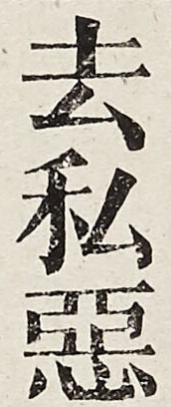去私惡
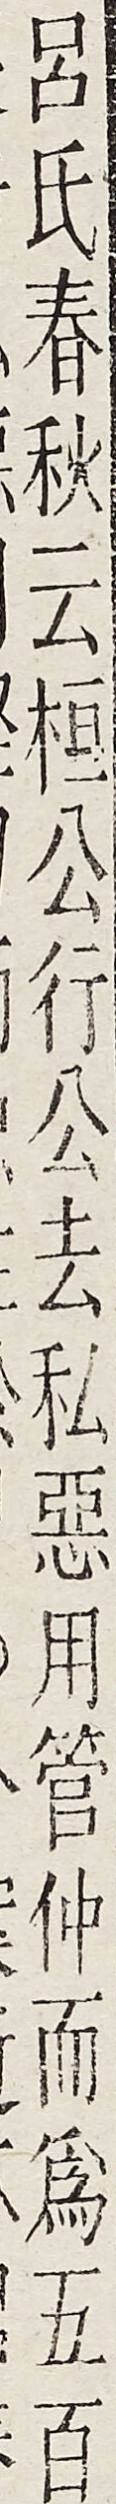呂氏春秋云桓公行公去私惡用管仲而為五百
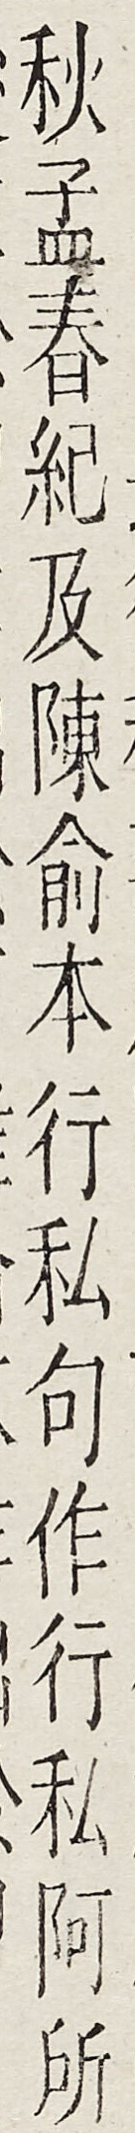秋孟春紀及陳俞本行私句作行私阿所
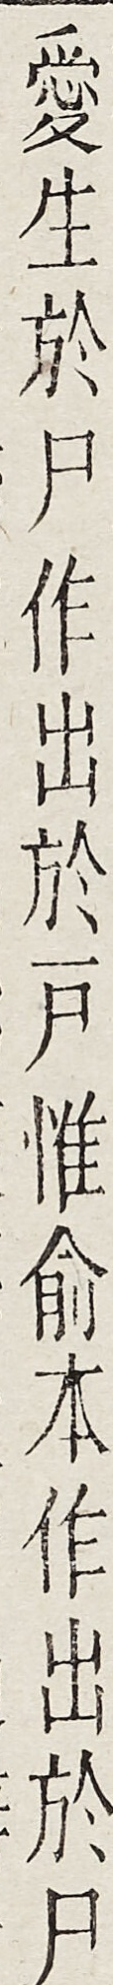愛生於尸作出於刀惟俞本作出於尸
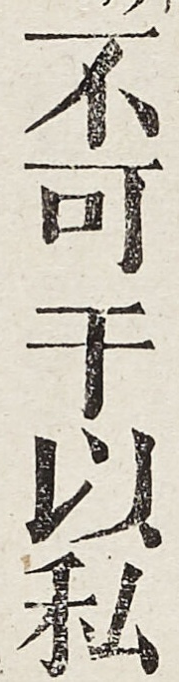不可於以私
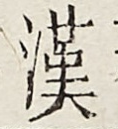漢
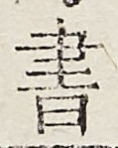書
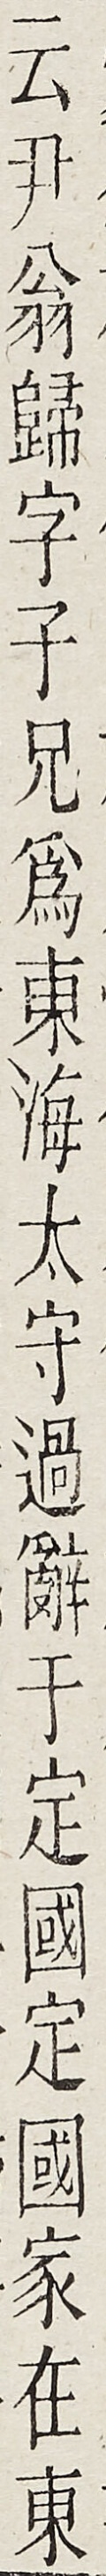云尹翁歸字子兄為東海太守過辭於定國定國家在東
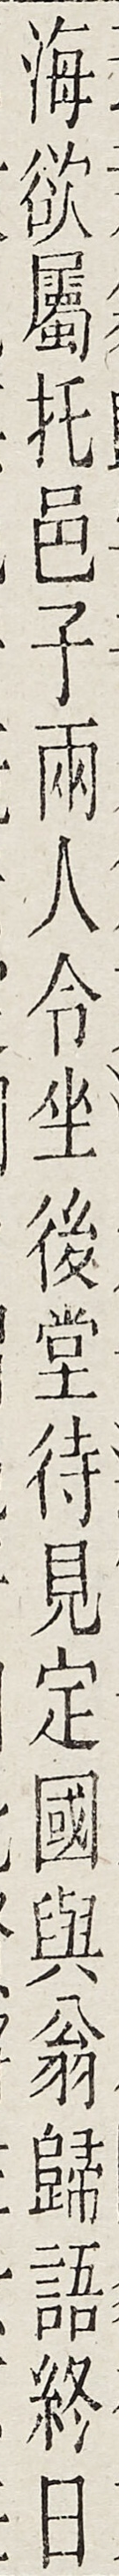海欲屬托邑子兩人令坐後堂待見定國與翁歸語終日
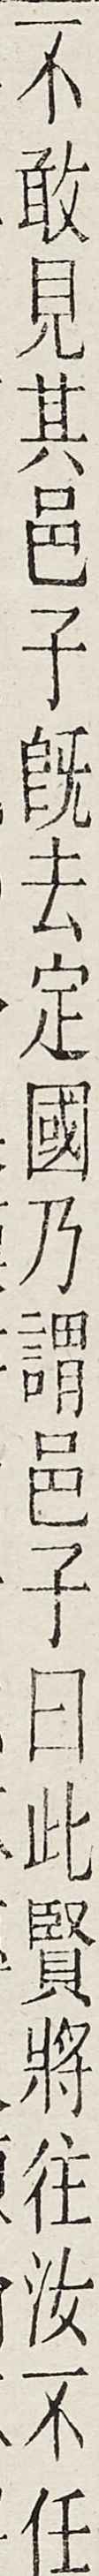不敢見其邑子既去定國乃謂邑子曰此賢將往汝不任
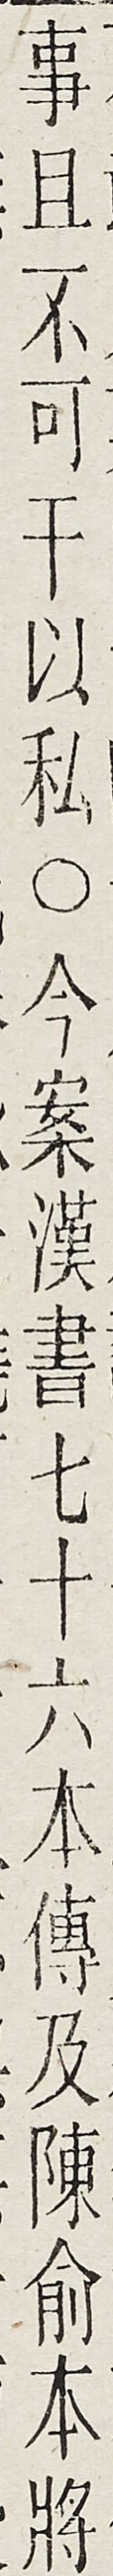事且不可干以私○今案漢書七十六本傳及陳俞本將
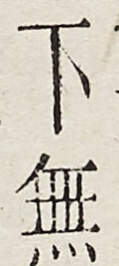下無
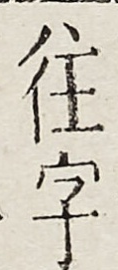往字
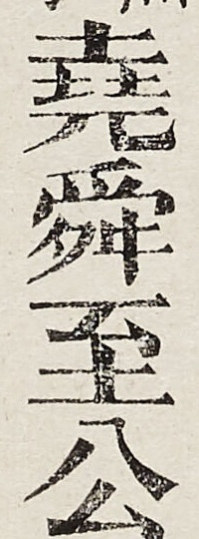堯舜至公
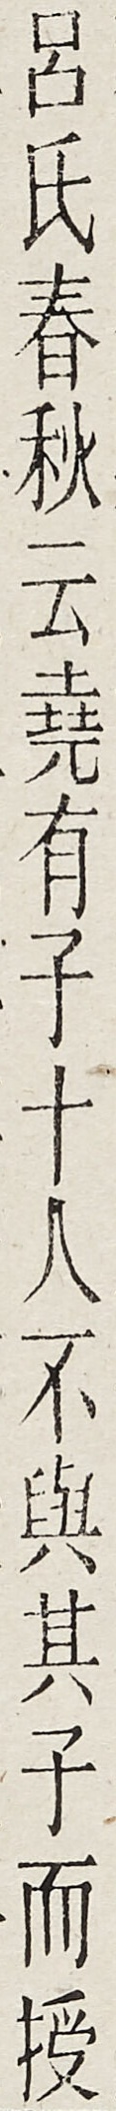呂氏春秋云堯有子十人不與其子而授
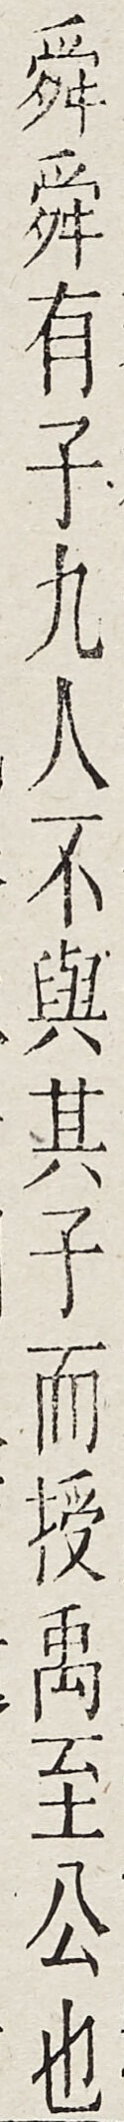舜舜有子九人不與其子而授禹至公也
